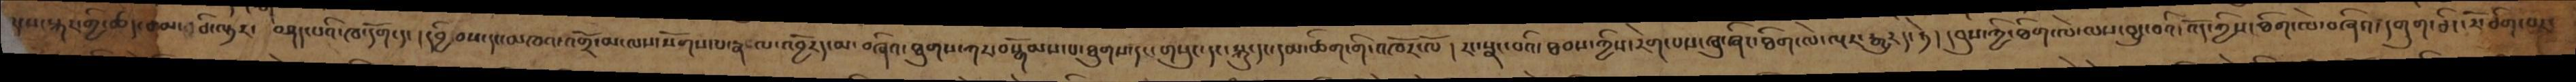ལྔས་སྐར་གྱི་ཚད་ཙམ་ཅི་ལྟར་ བཤད་པའི་ཁ་དོག་དང། དབྱིབས་དང་མཁའ་འགྲོ་མ་ལས་སོགས་པ་རྣལ་འབྱོརད་མ་བཞིའ་ཐུགས་ཀར་བསྒོམས་པ་ཐུགས་དང་གསུང་དང་སྐུ་དང་དམ་ཚིག་གི་འཁོར་ལོ། རང་སྣང་བའི་ཐབས་ཀྱིས་རེག་པས་ཞུ་ཞིང་ཐིག་ལེ་ལྔར་རྒྱུརད་ཏེ། དབུས་ཀྱི་ཐིག་ལེ་ལས་བྱུང་བའི་འོད་ཀྱིས་ཐིག་ལེ་བཞིའ་དགུག་ཅིང་རོ་ཅིག་བར་
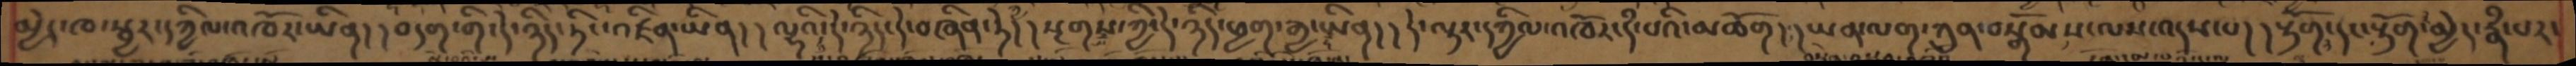མྱེད་ཁ་སྦྱར་དཀྱིལ་འཁོར་ཡིན། །བདག་གི་དེ་ཉིད་ཏིང་འཛིན་ཡིན། །ལྷའི་དེ་ཉིད་དེ་བཞིན་ཏེ། །སྔགས་ཀྱི་དེ་ཉིད་ཕྱག་རྒྱ་ཡིན། །དེ་ལྟར་དཀྱིལ་འཁོར་དཾ་པའི་མཆོག། །ཡན་ལག་ཀུན་བསྒོམས་ལས་འདས་པ། །རྟོག་དང་རྟོག་མྱེད་རྣཾ་པར་
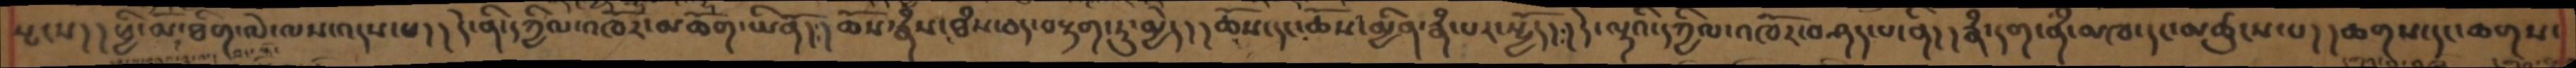སྤངས།། ཕྱི་མོ་ཐིག་ལེ་ལས་འདས་པ།།དེ་ནི་དཀྱིལ་འཁོར་མཆོག་ཡིནོ།།ཆོས་རྣཾས་ཐཾས་ཅད་བརྟག་ཏུ་མྱེད།།ཆོས་དང་ཆོས་མྱིན་རྣཾ་པར་སྤྱོད།། དེ་ལྟའི་དཀྱིལ་འཁོར་བཤད་པ་ནི།། རྣཾ་དག་ནྃ་མཁ་དང་མཚུངས་པ། །ཆགས་དང་ཆགས་
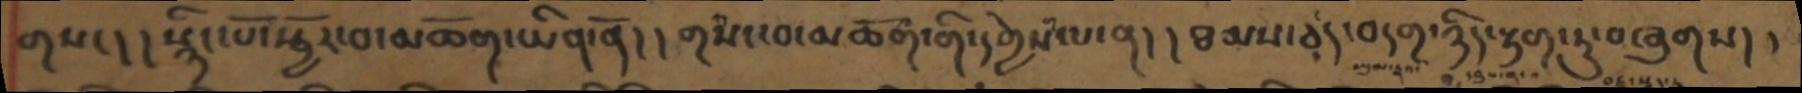གསང། །སྙིང་པོ་སྦྱོར་བ་མཆོག་ཡིན་ནོ། །གསང་བ་མཆོག་གི་དགྱེས་པ་ན། །ཐམས་ཅད་བདག་ཉིད་རྟག་ཏུ་བཞུགས། །
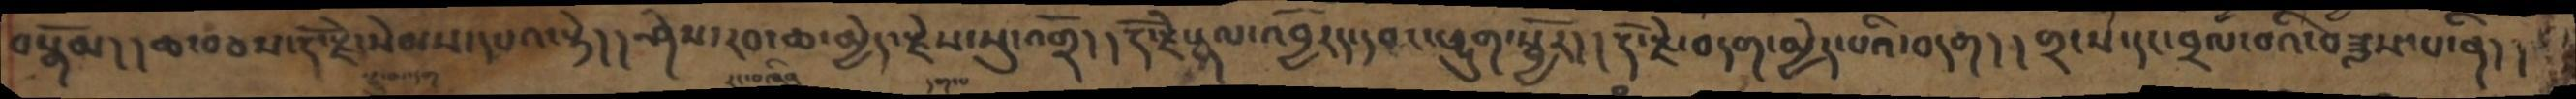བསྒོམ། །ཆ་བཅས་རྡོ་རྗེ་སེམས་དཔའ་སྟེ། །ཤེས་རབ་ཆ་མྱེད་རྗེས་སུ་འགྲོ། །རྡོ་རྗེ་རྣལ་འབྱོརད་དབང་ཕྱུག་སྦྱོར། །རྡོ་རྗེ་བདག་མྱེད་པའི་བདག། །གྲངས་དང་བྲལ་བའི་བཟླས་པ་ནི། །
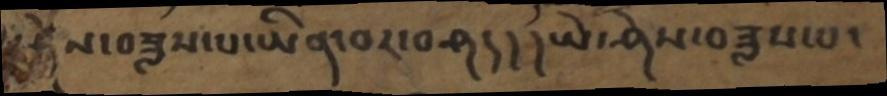རེས་བཟླས་པ་ཡིན་བར་བཤད། །ཡེ་ཤེས་བཟླས་པ་
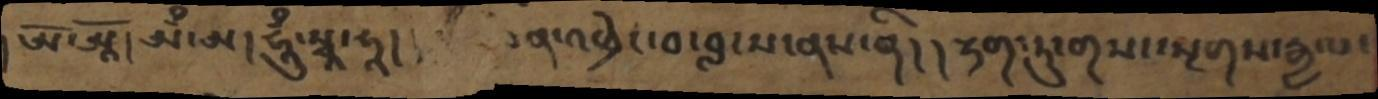ཨོ་ཨཱོ། ཨྃ་ཨ། ཧཱུྃ་སྭཱ་ཧཱ། །     ན་འཕྲེང་བ་བླངས་ནས་ནི། །རྟག་ཏུ་གསང་སྔགས་རྒྱལ་
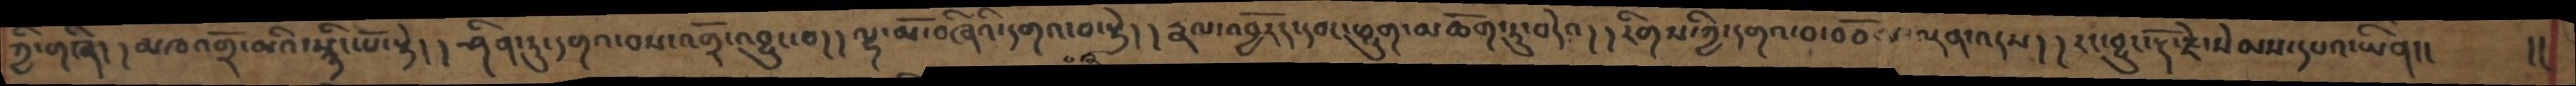ཀྱི་གཞི། །མཁའགྲོ་མའི་སྙིང་པོ་སྟེ། །ཤིན་ཏུ་དགའ་བས་འགྲོ་འབྱུང་བ། །ལྷ་མོ་བཞིའི་དགའ་བ་སྟེ། །རྣལ་འབྱོརད་དབང་ཕྱུག་མཆོག་ཏུ་བདེའ། །རིགས་ཀྱི་དགའ་བ་བཅོམ་ལྡན་འདས། །རང་བྱུང་རྡོ་རྗེ་སེམས་དཔའ་ཡིན།།  །།
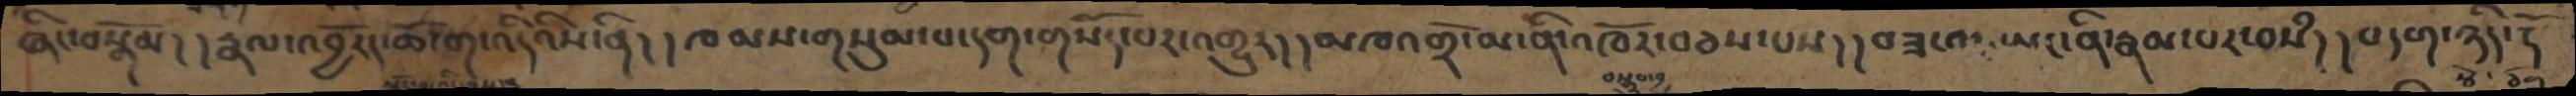ཞིང་བསྒོམ། །རྣལ་འབྱོརད་ཆོ་ག་འདིའིས་ནི། །ཁམས་གསུམ་པ་དག་གསོད་པར་འགྱུར། །མཁའགྲོ་མ་ནི་འཁོར་བཅས་པས། །བཟ་བ་ཡང་ནི་རྣམ་པར་བསཾ། །བདག་ཉིད་རྡོ་
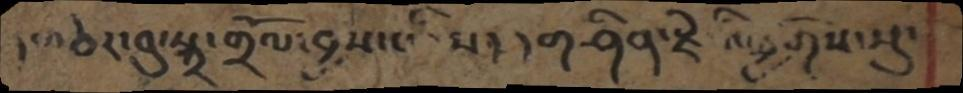།གཅེར་བུ་སྐྲ་གྲོལ་བྱས་པའིས། །གཤིན་རྗེའི་ཕྱོགས་སུ་
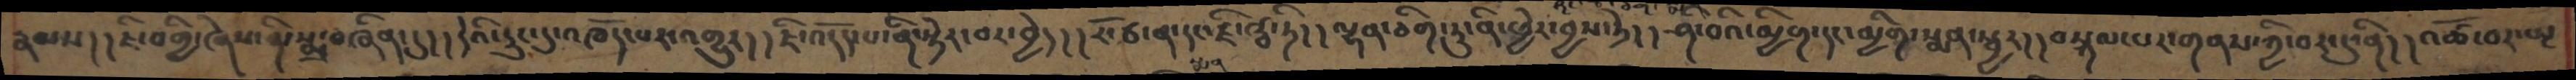རྣམས།།ཇི་བགྱི་ཞེས་ནི་སྨྲ་བཞིན་དུ།།དེའི་རུང་དུ་འཁོད་པར་འགྱུར།།ཇི་འདོད་པ་ནི་སྡེར་བར་བྱེད།།རོ་ཙ་ན་དང་ཛི་ཝ་ཏི།།ལྷན་ཅིག་ཏུ་ནི་ཕྱེར་བྱས་ཏེ།།ཤི་བའི་མྱིག་དང་མྱིག་སྨན་སྦྱར།།བསྐལ་པར་གནས་ཀྱི་བར་དུ་ནི།།འཚོ་བར་སྤ
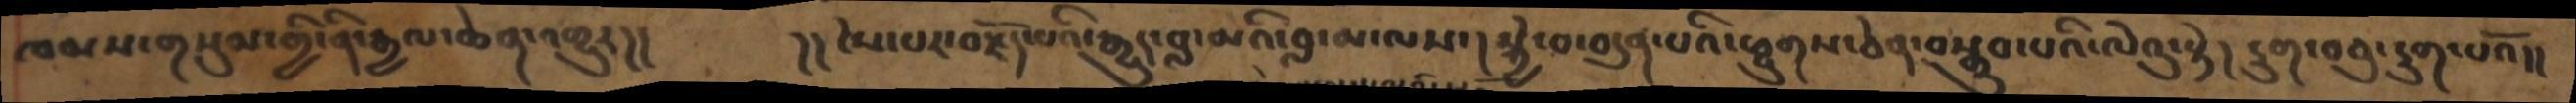ཁམས་གསུམ་གྱི་ནི་རྒྱལ་ཆེན་འགྱུར།།      །།ངེས་པར་བརྗོད་པའི་རྒྱུད་བླ་མའི་བླ་མ་ལས་།སྐྱེ་བ་བདུན་པའི་ཕྱུགས་ཅེན་བསྒྲུབ་པའི་ལེའུ་སྟེ། དྲུག་བཅུ་དྲུག་པའོ།།
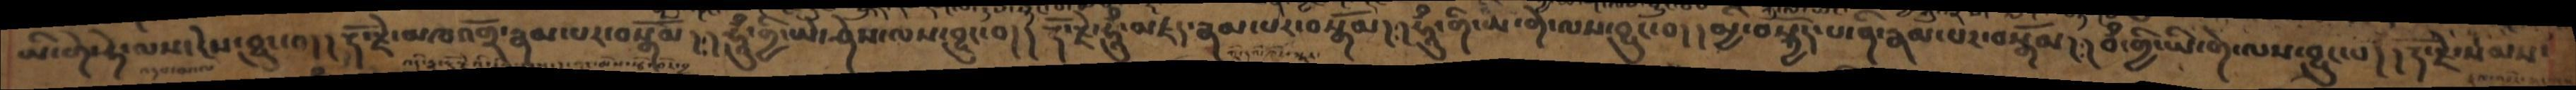ཡི་གེ་ཧེ་ལས་ངེས་བྱུང་བ།།རྡོ་རྗེ་མཁའགྲོ་རྣམ་པར་བསྒོམ། ཧཱུྃ་གྱི་ཡེ་ཤེས་ལས་བྱུང་བ།།རྡོ་རྗེ་ཧཱུྃ་མཛད་རྣམ་པར་བསྒོམ།།ཧཱུྃ་གི་ཡི་གེ་ལས་བྱུང་བ།།མྱི་བསྐྱོད་པ་ནི་རྣམ་པར་བསྒོམ།།བྃ་གྱི་ཡི་གེ་ལས་བྱུང་པ།།རྡོ་རྗེ་སེམས་
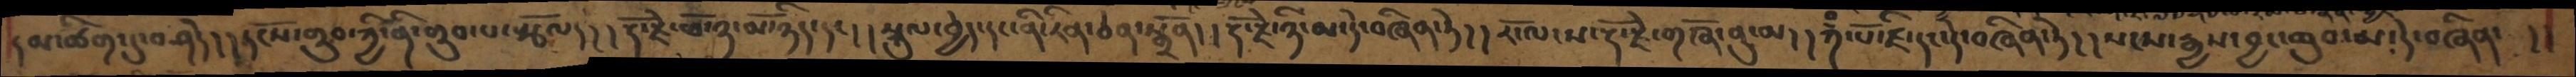དམ་ཚིག་དུ་བཤེད།།དངོས་གྲུབ་ཀྱི་ནི་གྲུབ་པ་སྩོལ།།རྡོ་རྗེ་ཕོ་ཉ་མོ་ཉིད་དང།།སྐུལ་བྱེད་དང་ནི་རིན་ཅེན་སྒྲོན།།རྡོ་རྗེ་ཉི་མ་དེ་བཞིན་ཏེ།།རོ་ལངས་རྡོ་རྗེ་གཞོ་ནུ་མ།།ཀྃ་པོ་ཛི་དང་དེ་བཞིན་ཏེ།།སངས་རྒྱས་བྱང་ཆུབ་མ་དེ་བཞིན་ །།
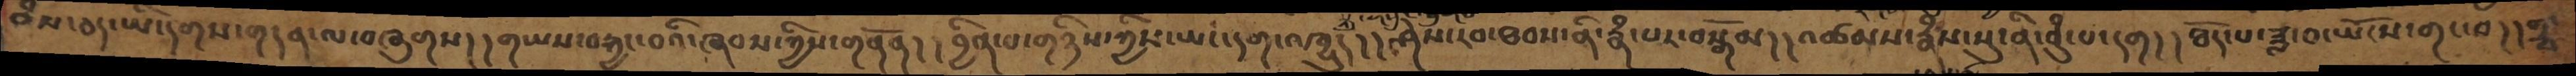ཐཾས་ཅད་ཡི་དགས་གདན་ལ་བཞུགས།།གཡས་བརྐྱང་བའི་ཞབས་ཀྱིས་གནོན།།བྱིན་པ་གཉིས་ཀྱིས་ཡང་དག་འཁྱུད།།ཤེས་རབ་ཐབས་ནི་རྣམ་པར་བསྒོམ།།འཚམས་རྣཾས་སུ་ནི་བུཾ་པ་དག།།ཐོད་པ་ཟླ་བ་ཡོངས་གང་བ།།གྲྭ
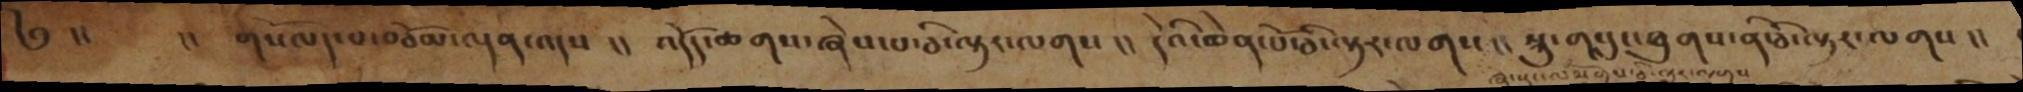༄ །།  །། གསོལད་པ་བཅོམ་ལྡན་འདས །། འདོད་ཆགས་ཞེས་པ་ཅི་ལྟར་ལགས །།  དེའི་ཆེན་པོ་ཅི་ལྟར་ལགས །། སྐུ་གསུང་ཐུགས་ནི་ཅི་ལྟར་ལགས །།
